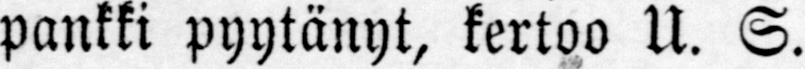pankki pyytänyt, kertoo U. S.
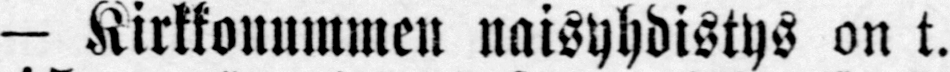— Kirkkonummen naisyhdistys on t.
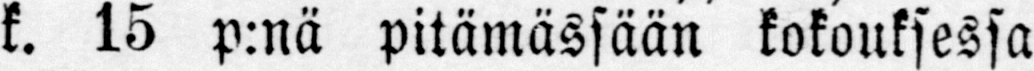k. 15 p:nä pitämässään kokouksessa
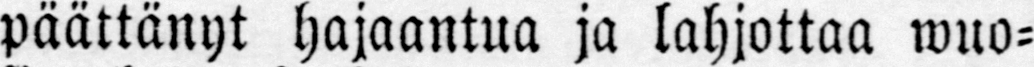päättänyt hajaantua ja lahjottaa wuo-
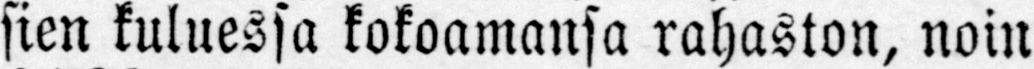sien kuluessa kokoamansa rahaston, noin
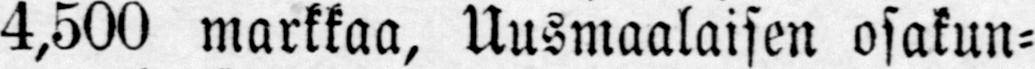4,500 markkaa, Uusmaalaisen osakun-
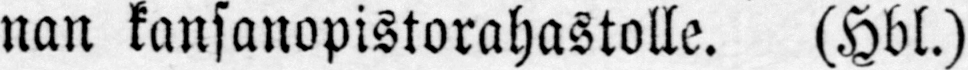nan kansanopistorahastolle. (Hbl.)
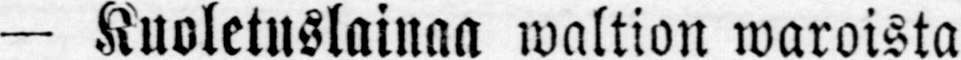— Kuoletuslainaa waltion waroista
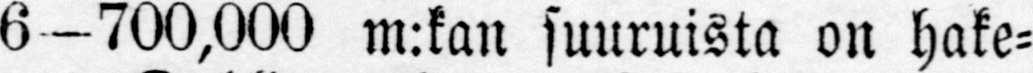6 -700,000 m:kan suuruista on hake-
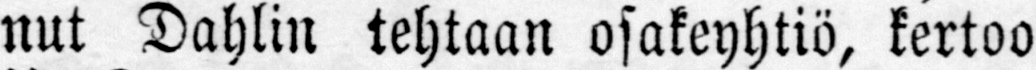nut Dahlin tehtaan osakeyhtiö, kertoo
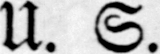U. S.
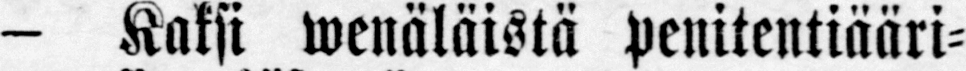- Kaksi wenäläistä penitentiääri-
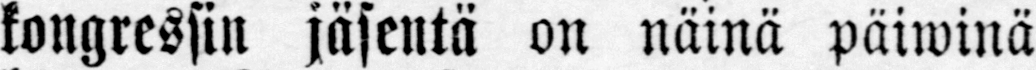kongressin jäsentä on näinä päiwinä
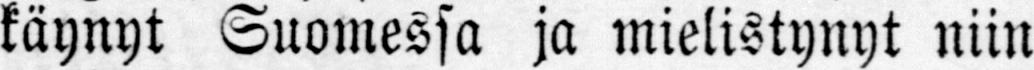käynyt Suomessa ja mielistynyt niin
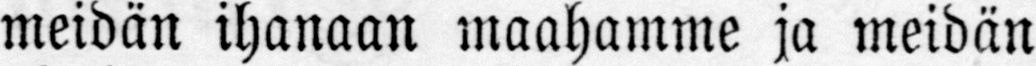meidän ihanaan maahamme ja meidän
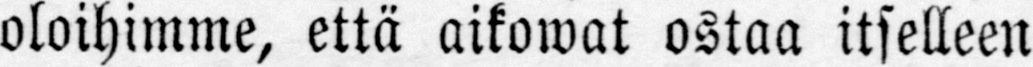oloihimme, että aikowat ostaa itselleen
